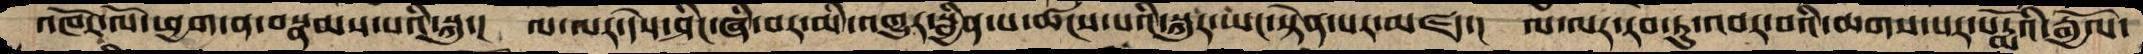འཁོར་ལོ་ཕྱག་ན་བསྣམས་པའི་སྐུ་།  ལ་ལར་དེས་ཤིང་ཞི་བར་མི་འགྱུར་སྦྱིན་པ་ཚངས་པའི་སྐུར་ཡང་སྟེན་པར་མཛད་།  ལ་ལར་རབ་ཏུ་འབར་བའི་ཆགས་པར་པདྨོའི་རྒྱལོ་
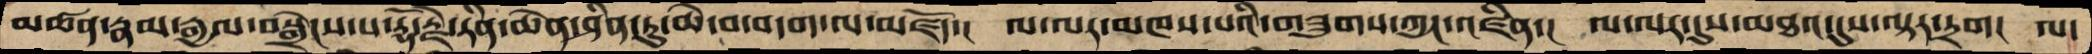མཚན་རྣམ་རྒྱལ་བསྒྲེངས་པ་རྡོ་རྗེ་རིན་ཆེན་ཤིན་ཏུ་ཆེ་བ་བདག་ལ་མཛོད་།  ལ་ལར་མཁས་པའི་གཟུགས་ཀྱང་འཛིན་།  ལ་ལར་དུས་མཐའ་དུས་ལྟར་དྲག་།  ལ་
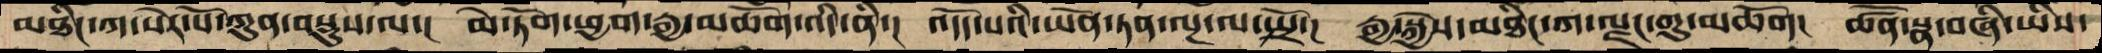མཐིང་ཀ་སེར་པོ་ཀུན་བསྡུས་ལ་།   མེ་ཏོག་ཕྱག་རྒྱ་མཆོག་འདི་ནི་།  འདོད་པའི་ཡོན་ཏན་ལྔ་ལ་སྤྲོ་།  རྒྱ་སྐྱེས་མཐིང་ཀ་ལྗང་གུ་མཆོག།  ཚོན་སྣ་བཞི་ཡིས་
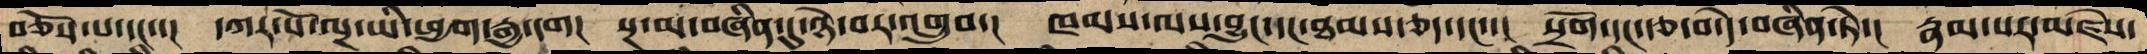བཅོས་པ་དང་།  དཀར་པོ་ལྔ་ཡི་ཕྱག་རྒྱ་དག།  སྔ་མ་བཞིན་དུ་ཉེ་བར་འགྲུབ་།  ཁམས་ལས་བྱུང་དང་ཐམས་ཅད་དང་་།  སྲོག་དང་རྩ་བ་དེ་བཞིན་ཏེ་།  རྣམ་པར་མཛེས་
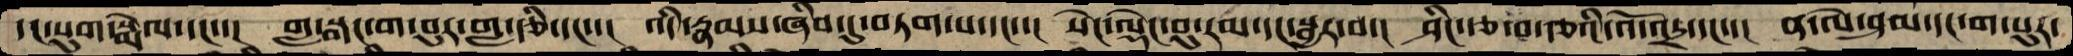དང་སུག་སྨེལ་དང་་།  གླ་སྒང་ག་པུར་གླ་རྩི་དང་་།  འདི་རྣམས་ཞིབ་ཏུ་བཏག་པ་དང་་།  སེང་ལྡེང་བུ་རམ་དང་སྦྱར་བ་།  ཤིང་རྩ་བ་རྩའི་འོ་འདྲ་དང་་།  ན་ལེ་ཤམ་དང་ག་པུར་
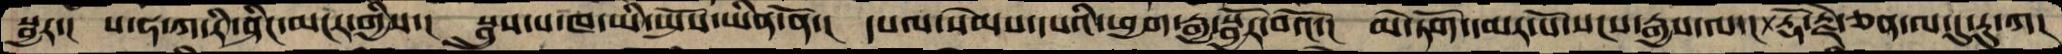སྦྱར་། ས་ཧ་ཀ་རི་ཤིང་མངར་གྱིས་། སྦུས་པ་ཁ་ཡི་སྤོས་ཡིན་ནོ་། དཔལ་སེམས་དཔའི་ཕྱག་རྒྱ་སྦྱོར་བའོ་། མེ་ཏོག་དམར་པོ་སངས་རྒྱས་ལ་། རྡོ་རྗེ་ཅན་ལ་དུ་རུ་ཀ།
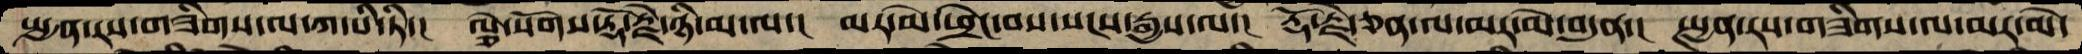སྤྱན་རས་གཟིགས་ལ་ཀ་པི་ཏི་།  ལྕེ་སོགས་རྡོ་རྗེ་ཉི་མ་ལ་།  མར་མེ་ཕྲེང་བས་སངས་རྒྱས་ལ་།  རྡོ་རྗེ་ཅན་ལ་མར་མེ་བདུན་།  སྤྱན་རས་གཟིགས་ལ་མར་མེ་
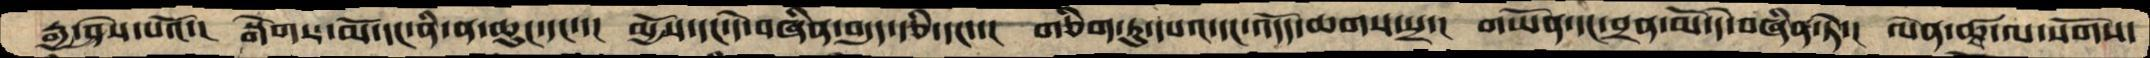རྒྱ་ཤེས་པའོ་།  སྒེགས་མོ་དང་ནི་ན་ཆུང་དང་་།  མྱོས་དང་དེ་བཞིན་བདུད་རྩི་དང་་།  གཅིག་ཏུ་དཔའ་དང་འདོད་ཆགས་པྲ་།  གཡོན་དང་བྲན་མོ་དེ་བཞིན་ཏེ་།  ལེན་ཚྭ་ལ་སོགས་
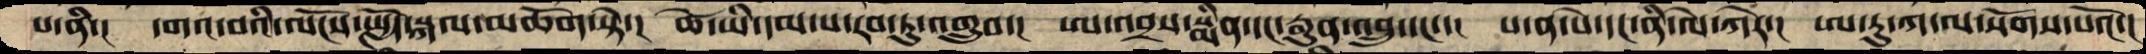པ་ནི་།  དགའ་བའི་ལོངས་སྤྱོད་སྐལ་མཆོག་སྟེ་།  ཚེ་ཡི་དམ་པ་རབ་ཏུ་འགྲུབ་།  ཨ་འབྲས་སྨིན་དང་རྨུན་འབྲུ་དང་་།  པ་ན་པེ་དང་ནི་ལེ་ཀེར་།  ཨ་རུ་ཀ་ལ་སོགས་པའོ་།
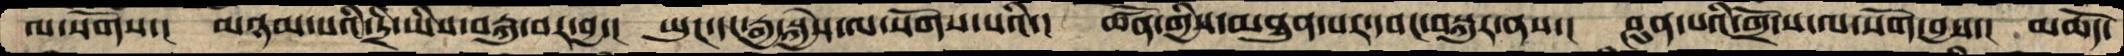ལ་སོགས་།  མཉམ་པའི་དྲི་ཡིས་བརྐུ་བར་བྱ་།  ཡུང་དང་རྒྱ་སྐྱེས་ལ་སོགས་པའི་།  ཚོན་གྱིས་མཐུན་པར་དབང་བསྐུར་ནས་།  ཤུན་པའི་གྲོ་ས་ལ་སོག་བྱས་།  མཆོད་
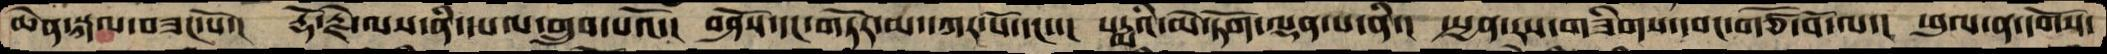ཆེན་སྐལ་བཟང་པོ་།  རྡོ་རྗེ་ལས་ནི་དཔལ་གྲུབ་པའོ་།  བཤོས་དང་གཏོར་མ་དཀར་པོ་དང་་།  པདྨའི་མེ་ཏོག་ལྡན་པ་ནི་།  སྤྱན་རས་གཟིགས་དབང་གཙོ་བོ་ལ་།  ཕུལ་ན་དགོས་
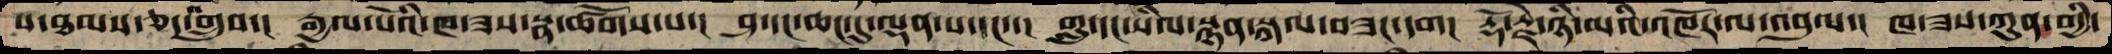པ་ཐམས་ཅད་འགྲུབ་།  རྒྱལ་པོའི་ཁ་ཟས་སྣ་ཚོགས་པ་།  ཤ་དང་ཆང་དུ་ལྡན་པ་དང་་།  གླུ་དང་སིལ་སྙན་སྐལ་བཟང་དག།  རྡོ་རྗེ་ཉི་མའི་འཁོར་ལ་འབུལ་།  ཁ་ཟས་ཀུན་གྱི་
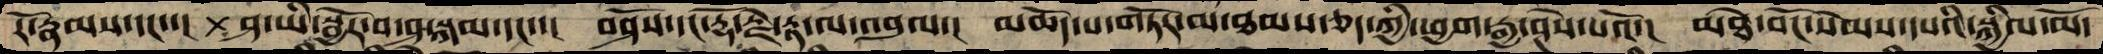རོ་རྣམས་དང་་།  ཤ་ཡི་སྦྱོར་བ་ཤ་སྐམ་དང་་།  བཤོས་དང་རྡོ་རྗེ་རྟ་ལ་འབུལ་།  མཆོད་པ་གཏོར་མ་ཐམས་ཅད་ཀྱི་ཕྱག་རྒྱ་ཤེས་པའོ་།  མཐེ་བོང་སེམས་དཔའི་སྐྱིལ་མོ་
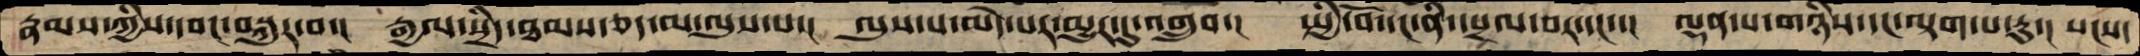རྣམས་ཀྱིས་དབང་བསྐུར་བ་།  རྒྱལ་སྲིད་ཐམས་ཅད་མ་ལུས་པ་།  ལུས་པ་མེད་པར་མྱུར་དུ་འགྲུབ་།  སྤྱི་བོ་དང་ནི་དཔྲལ་བར་དང་་།  ལྡན་པ་གཉིས་དང་ལྟག་པ་རུ་།  སངས་
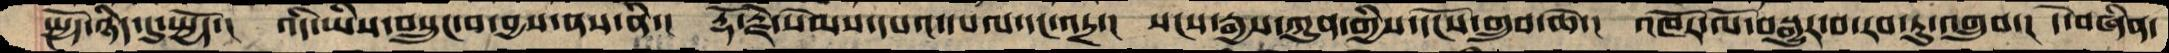སྤྱོད་ཉིད་དུ་སྤྱོད་།  འདི་ཡིས་བསྲུང་བ་བྱས་ནས་ནི་།  རྡོ་རྗེ་སེམས་དཔའ་དཔལ་དང་འདྲ་།  སངས་རྒྱས་ཀུན་གྱིས་དངོས་གྲུབ་ཆེ་།  འཁོར་ལོ་བསྒྱུར་བ་རབ་ཏུ་འགྲུབ་།  དེ་བཞིན་
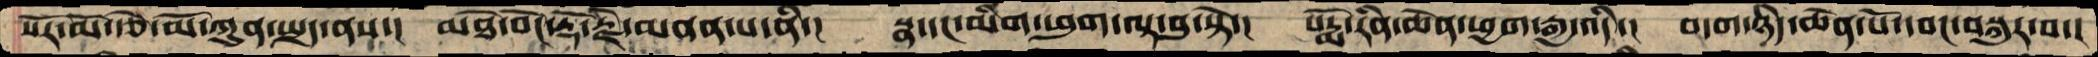སེར་མོ་རྩེ་མོ་ཀུན་སྤྲད་ནས་།  མཐེ་བོང་རྡོ་རྗེ་མནན་ནས་ནི་།  སྣ་དང་མིག་ཕུག་ལྟ་བུ་སྟེ་།  པདྨོ་རིན་ཆེན་ཕྱག་རྒྱ་འདི་།  བདག་ཉིད་ཆེན་པོ་དབང་བསྐུར་བ་།
